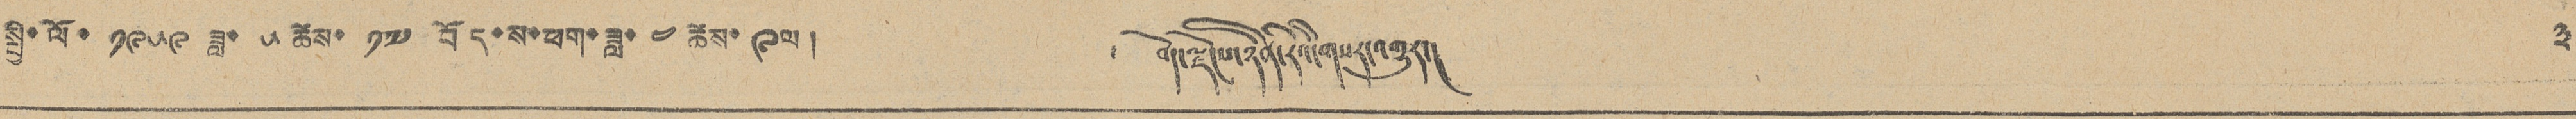སྤྱི་ལོ་ ༡༩༥༩ ཟླ་ ༥ ཚེས་ ༡༧ བོད་ས་ཕག་ཟླ་ ༤ ཚེས་ ༩ ལ། ༄ བོད་ལྗོངས་ཉིན་རེའི་གསར་འགྱུར། ༣
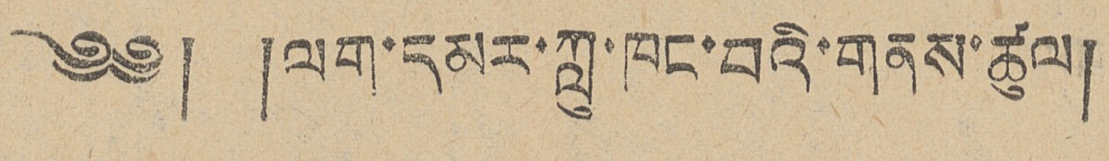༄༅། །ལག་དམར་ཀུ་ཁང་བའི་གནས་ཚུལ།
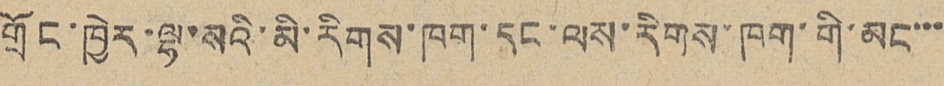གྲོང་ཁྱེར་ལྷ་སའི་མི་རིགས་ཁག་དང་ལས་རིགས་ཁག་གི་མང་་་
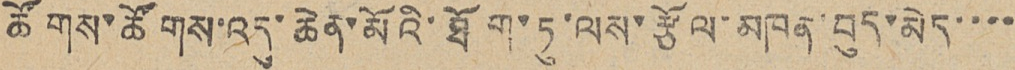ཚོགས་ཚོགས་འདུ་ཆེན་མོའི་ཐོག་ཏུ་ལས་རྩོལ་མཁན་བུད་མེད་་་་
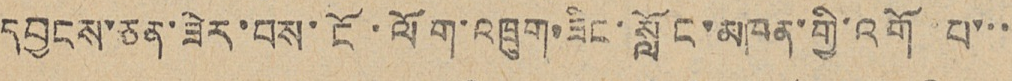དབྱངས་ཅན་ཟེར་བས་ངོ་ལོག་འཁྲུག་ཟིང་སློང་མཁན་གྱི་འགོ པ་་་
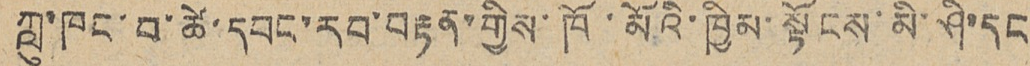ཀླུ་ཁང་བ་ཚེ་དབང་རབ་བརྟན་གྱིས་ཁོ་མོའི་ཁྱིམ་སྟོངས་མི་ཤི་དང
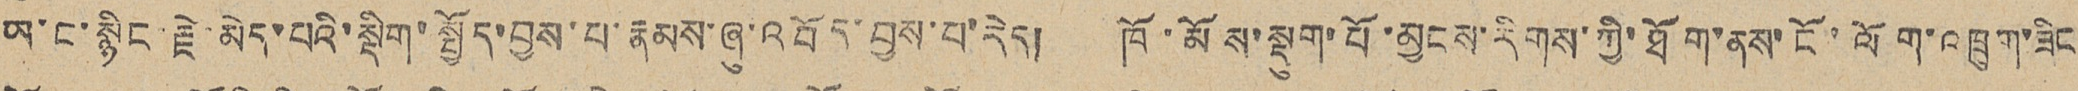ཡང་ང་སྙིང་རྗེ་མེད་པའི་སྡིག་སྤྱོད་བྱས་པ་རྣམས་ཞུ་འབོད་བྱས་པ་རེད། ཁོ་མོས་སྡུག་པོ་མྱངས་རིགས་ཀྱི་ཐོག་ནས་ངོ་ལོག་འཁྲུག་ཟིང
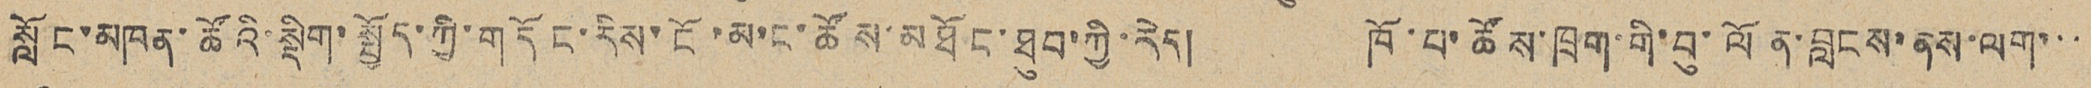སློང་མཁན་ཚོའི་སྡིག་སྤྱོད་ཀྱི་གདོང་རིས་ངོ་མ་ང་ཚོས་མཐོང་ཐུབ་ཀྱི་རེད། ཁོ་པ་ཚོས་ཁྲག་གི་བུ་ལོན་བླངས་ནས་ལག་་་
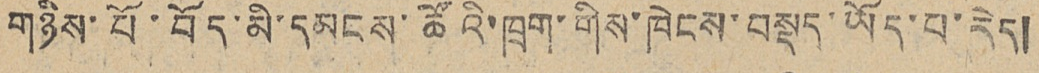གཉིས་པོ་བོད་མི་དམངས་ཚོའི་ཁྲག་གིས་ཁེངས་བསྡད་ཡོད་པ་རེད།
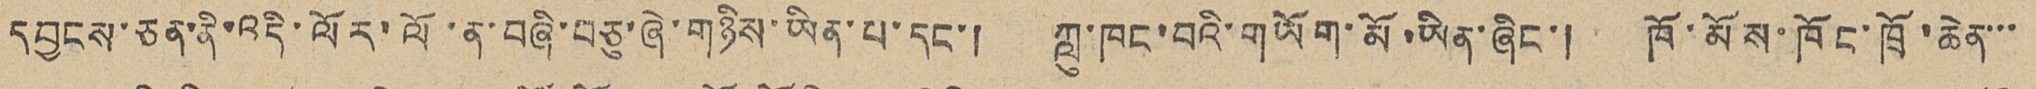དབྱངས་ཅན་ནི་འདི་ལོར་ལོ་ན་བཞི་བཅུ་ཞེ་གཉིས་ཡིན་པ་དང་། ཀླུ་ཁང་བའི་གཡོག་མོ་ཡིན་ཞིང་། ཁོ་མོས་ཁོང་ཁྲོ་ཆེན་་་
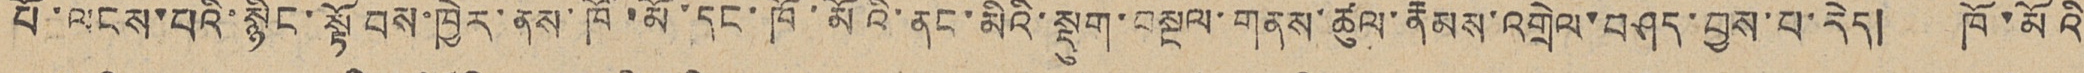པོ་ལངས་པའི་སྙིང་སྟོབས་ཁྱེར་ནས་ཁོ་མོ་དང་ཁོ་མོའི་ནང་མིའི་སྡུག་བསྔལ་གནས་ཚུལ་རྣམས་འགྲེལ་བཤད་བྱས་པ་རེད། ཁོ་མོའི
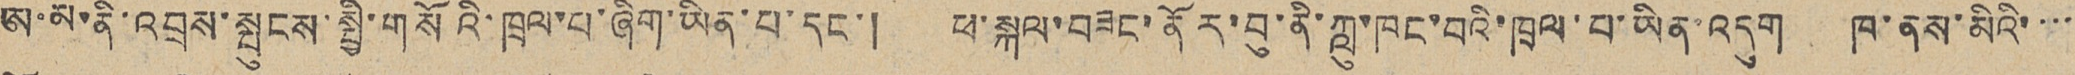ཨ་མ་ནི་འབྲས་སྤུངས་སྤྱི་གསོའི་ཁྲལ་པ་ཞིག་ཡིན་པ་དང་། ཕ་སྐལ་བཟང་ནོར་བུ་ནི་ཀླུ་ཁང་བའི་ཁྲལ་པ་ཡིན་འདུག ཁ་ནས་མིའི་་་་
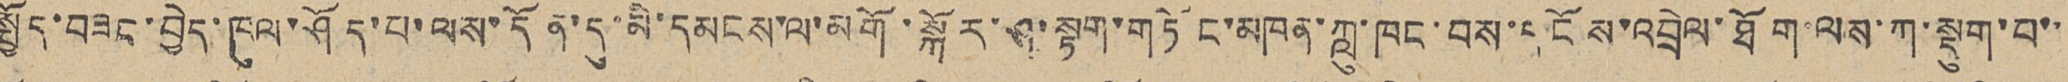སྤྱོད་བཟང་བྱེད་ཁུལ་ཤོད་པ་ལས་དོན་དུ་མི་དམངས་ལ་མགོ་སྐོར་ཤ་སྟག་གཏོང་མཁན་ཀླུ་ཁང་བས་དངོས་འབྲེལ་ཐོག་ལས་ཀ་སྡུག་པ་་
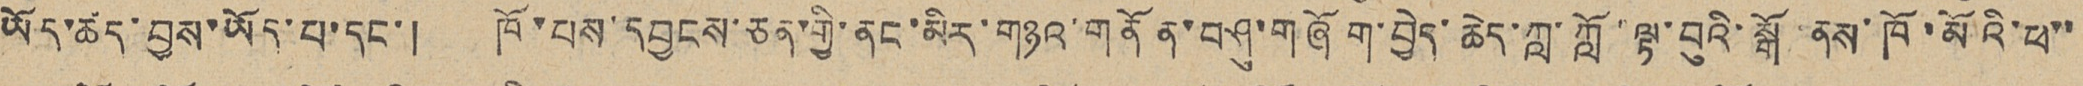ཡོད་ཚད་བྱས་ཡོད་པ་དང་། ཁོ་པས་དབྱངས་ཅན་གྱི་ནང་མིར་གཉའ་གནོན་བཤུ་གཞོག་བྱེད་ཆེད་ཀླ་ཀློ་ལྟ་བུའི་སྒོ་ནས་ཁོ་མོའི་ཕ་་
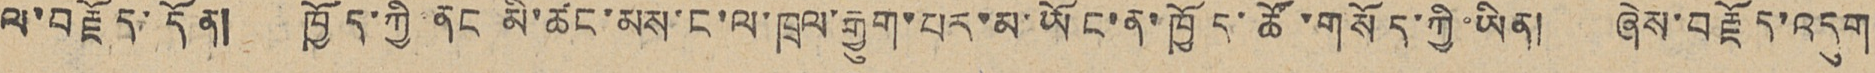ལ་བརྗོད་དོན། ཁྱོད་ཀྱི ནང མི་ཚང་མས་ང་ལ་ཁྲལ་རྒྱུག་པར་མ་ཡོང་ན་ཁྱོད་ཚོ་གསོད་ཀྱི་ཡིན། ཞེས་བརྗོད་འདུག
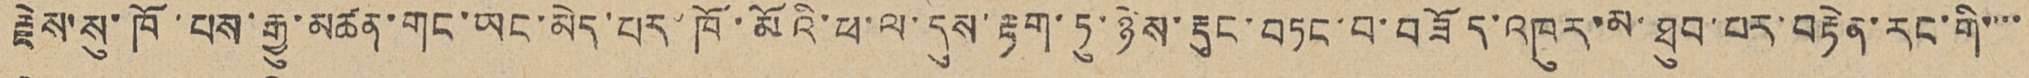རྗེས་སུ་ཁོ་པས་རྒྱུ་མཚན་གང་ཡང་མེད་པར་ཁོ་མོའི་ཕ་ལ་དུས་རྟག་ཏུ་ཉེས་རྡུང་བཏང་བ་བཟོད་འཁུར་མ་ཐུབ་པར་བརྟེན་རང་གི་་་་
